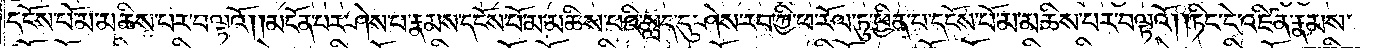དངོས་པོ་མ་མཆིས་པར་བལྟའོ། །མངོན་པར་ཤེས་པ་རྣམས་དངོས་པོ་མ་མཆིས་པའི་སླད་དུ་ཤེས་རབ་ཀྱི་ཕ་རོལ་ཏུ་ཕྱིན་པ་དངོས་པོ་མ་མཆིས་པར་བལྟའོ། །ཏིང་ངེ་འཛིན་རྣམས་
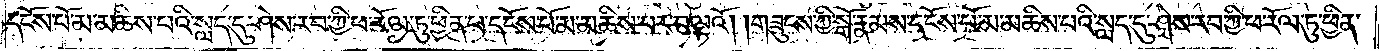དངོས་པོ་མ་མཆིས་པའི་སླད་དུ་ཤེས་རབ་ཀྱི་ཕ་རོལ་ཏུ་ཕྱིན་པ་དངོས་པོ་མ་མཆིས་པར་བལྟའོ། །གཟུངས་ཀྱི་སྒོ་རྣམས་དངོས་པོ་མ་མཆིས་པའི་སླད་དུ་ཤེས་རབ་ཀྱི་ཕ་རོལ་ཏུ་ཕྱིན་
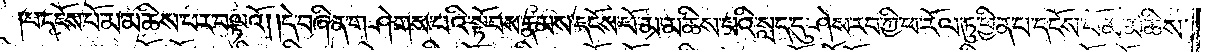པ་དངོས་པོ་མ་མཆིས་པར་བལྟའོ། །དེ་བཞིན་གཤེགས་པའི་སྟོབས་རྣམས་དངོས་པོ་མ་མཆིས་པའི་སླད་དུ་ཤེས་རབ་ཀྱི་ཕ་རོལ་ཏུ་ཕྱིན་པ་དངོས་པོ་མ་མཆིས་
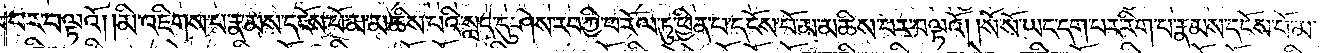པར་བལྟའོ། །མི་འཇིགས་པ་རྣམས་དངོས་པོ་མ་མཆིས་པའི་སླད་དུ་ཤེས་རབ་ཀྱི་ཕ་རོལ་ཏུ་ཕྱིན་པ་དངོས་པོ་མ་མཆིས་པར་བལྟའོ། །སོ་སོ་ཡང་དག་པར་རིག་པ་རྣམས་དངོས་པོ་མ་
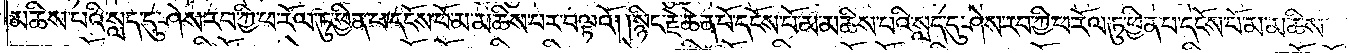མཆིས་པའི་སླད་དུ་ཤེས་རབ་ཀྱི་ཕ་རོལ་ཏུ་ཕྱིན་པ་དངོས་པོ་མ་མཆིས་པར་བལྟའོ། །སྙིང་རྗེ་ཆེན་པོ་དངོས་པོ་མ་མཆིས་པའི་སླད་དུ་ཤེས་རབ་ཀྱི་ཕ་རོལ་ཏུ་ཕྱིན་པ་དངོས་པོ་མ་མཆིས་
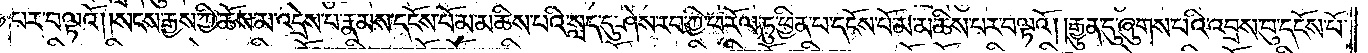པར་བལྟའོ། །སངས་རྒྱས་ཀྱི་ཆོས་མ་འདྲེས་པ་རྣམས་དངོས་པོ་མ་མཆིས་པའི་སླད་དུ་ཤེས་རབ་ཀྱི་ཕ་རོལ་ཏུ་ཕྱིན་པ་དངོས་པོ་མ་མཆིས་པར་བལྟའོ། །རྒྱུན་དུ་ཞུགས་པའི་འབྲས་བུ་དངོས་པོ་
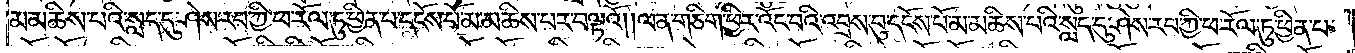མ་མཆིས་པའི་སླད་དུ་ཤེས་རབ་ཀྱི་ཕ་རོལ་ཏུ་ཕྱིན་པ་དངོས་པོ་མ་མཆིས་པར་བལྟའོ། །ལན་གཅིག་ཕྱིར་འོང་བའི་འབྲས་བུ་དངོས་པོ་མ་མཆིས་པའི་སླད་དུ་ཤེས་རབ་ཀྱི་ཕ་རོལ་ཏུ་ཕྱིན་པ་
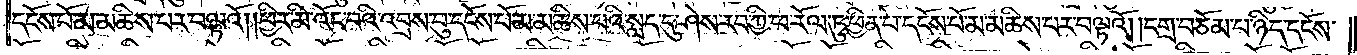དངོས་པོ་མ་མཆིས་པར་བལྟའོ། །ཕྱིར་མི་འོང་བའི་འབྲས་བུ་དངོས་པོ་མ་མཆིས་པའི་སླད་དུ་ཤེས་རབ་ཀྱི་ཕ་རོལ་ཏུ་ཕྱིན་པ་དངོས་པོ་མ་མཆིས་པར་བལྟའོ། དགྲ་བཅོམ་པ་ཉིད་དངོས་
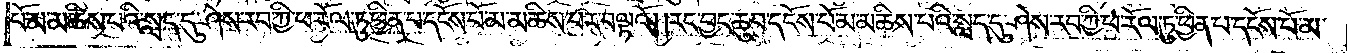པོ་མ་མཆིས་པའི་སླད་དུ་ཤེས་རབ་ཀྱི་ཕ་རོལ་ཏུ་ཕྱིན་པ་དངོས་པོ་མ་མཆིས་པར་བལྟའོ། །རང་བྱང་ཆུབ་དངོས་པོ་མ་མཆིས་པའི་སླད་དུ་ཤེས་རབ་ཀྱི་ཕ་རོལ་ཏུ་ཕྱིན་པ་དངོས་པོ་མ་
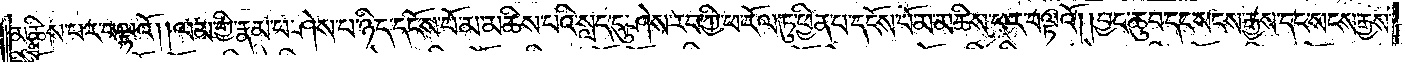མཆིས་པར་བལྟའོ། །ལམ་གྱི་རྣམ་པ་ཤེས་པ་ཉིད་དངོས་པོ་མ་མཆིས་པའི་སླད་དུ་ཤེས་རབ་ཀྱི་ཕ་རོལ་ཏུ་ཕྱིན་པ་དངོས་པོ་མ་མཆིས་པར་བལྟའོ། །བྱང་ཆུབ་དང་སངས་རྒྱས་དང་སངས་རྒྱས་
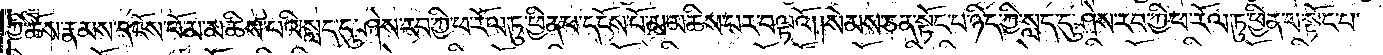ཀྱི་ཆོས་རྣམས་དངོས་པོ་མ་མཆིས་པའི་སླད་དུ་ཤེས་རབ་ཀྱི་ཕ་རོལ་ཏུ་ཕྱིན་པ་དངོས་པོ་མ་མཆིས་པར་བལྟའོ། །སེམས་ཅན་སྟོང་པ་ཉིད་ཀྱི་སླད་དུ་ཤེས་རབ་ཀྱི་ཕ་རོལ་ཏུ་ཕྱིན་པ་སྟོང་པ་
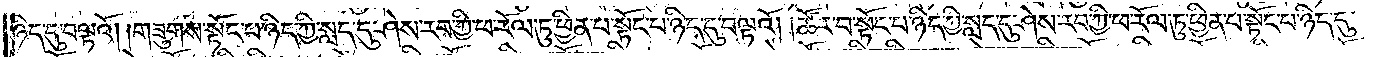ཉིད་དུ་བལྟའོ། །གཟུགས་སྟོང་པ་ཉིད་ཀྱི་སླད་དུ་ཤེས་རབ་ཀྱི་ཕ་རོལ་ཏུ་ཕྱིན་པ་སྟོང་པ་ཉིད་དུ་བལྟའོ། །ཚོར་བ་སྟོང་པ་ཉིད་ཀྱི་སླད་དུ་ཤེས་རབ་ཀྱི་ཕ་རོལ་ཏུ་ཕྱིན་པ་སྟོང་པ་ཉིད་དུ་
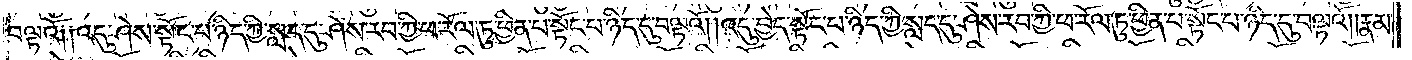བལྟའོ༑ ༑འདུ་ཤེས་སྟོང་པ་ཉིད་ཀྱི་སླད་དུ་ཤེས་རབ་ཀྱི་ཕ་རོལ་ཏུ་ཕྱིན་པ་སྟོང་པ་ཉིད་དུ་བལྟའོ། །འདུ་བྱེད་སྟོང་པ་ཉིད་ཀྱི་སླད་དུ་ཤེས་རབ་ཀྱི་ཕ་རོལ་ཏུ་ཕྱིན་པ་སྟོང་པ་ཉིད་དུ་བལྟའོ། །རྣམ་
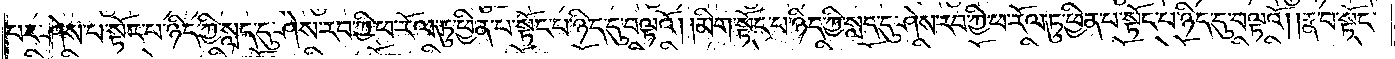པར་ཤེས་པ་སྟོང་པ་ཉིད་ཀྱི་སླད་དུ་ཤེས་རབ་ཀྱི་ཕ་རོལ་ཏུ་ཕྱིན་པ་སྟོང་པ་ཉིད་དུ་བལྟའོ། །མིག་སྟོང་པ་ཉིད་ཀྱི་སླད་དུ་ཤེས་རབ་ཀྱི་ཕ་རོལ་ཏུ་ཕྱིན་པ་སྟོང་པ་ཉིད་དུ་བལྟའོ། །རྣ་བ་སྟོང་
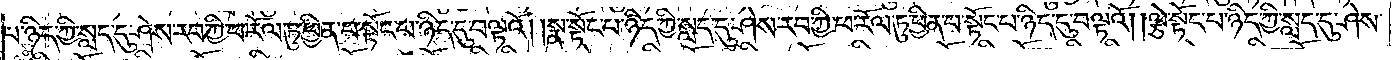པ་ཉིད་ཀྱི་སླད་དུ་ཤེས་རབ་ཀྱི་ཕ་རོལ་ཏུ་ཕྱིན་པ་སྟོང་པ་ཉིད་དུ་བལྟའོ། །སྣ་སྟོང་པ་ཉིད་ཀྱི་སླད་དུ་ཤེས་རབ་ཀྱི་ཕ་རོལ་ཏུ་ཕྱིན་པ་སྟོང་པ་ཉིད་དུ་བལྟའོ། །ལྕེ་སྟོང་པ་ཉིད་ཀྱི་སླད་དུ་ཤེས་
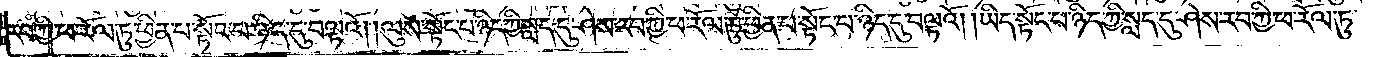རབ་ཀྱི་ཕ་རོལ་ཏུ་ཕྱིན་པ་སྟོང་པ་ཉིད་དུ་བལྟའོ། །ལུས་སྟོང་པ་ཉིད་ཀྱི་སླད་དུ་ཤེས་རབ་ཀྱི་ཕ་རོལ་ཏུ་ཕྱིན་པ་སྟོང་པ་ཉིད་དུ་བལྟའོ། །ཡིད་སྟོང་པ་ཉིད་ཀྱི་སླད་དུ་ཤེས་རབ་ཀྱི་ཕ་རོལ་ཏུ་
